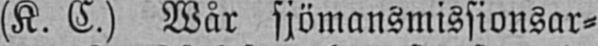(K. C.) Wår sjömansmissionsar-
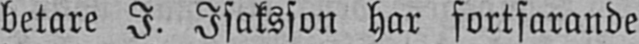betare I. Isaksson har fortfarande
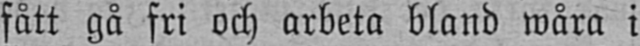fått gå fri och arbeta bland wåra i
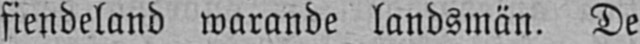fiendeland warande landsmän. De
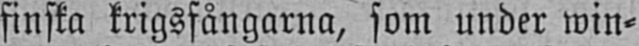finska krigsfångarna, som under win-
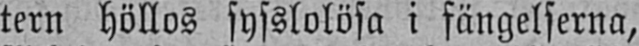tern höllos sysslolösa i fängelserna,
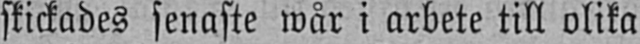skickades senaste wår i arbete till olika
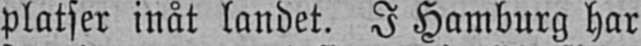platser inåt landet. I Hamburg har
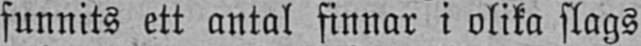funnits ett antal finnar i olika slags
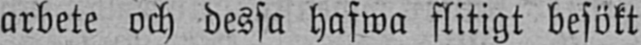arbete och dessa hafwa flitigt besökt
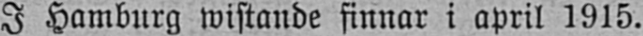I Hamburg wistande finnar i april 1915.
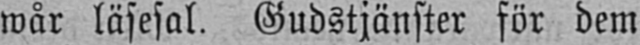wår läsesal. Gudstjänster för dem
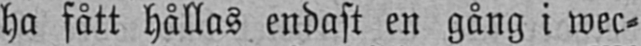ha fått hållas endast en gång i wec-
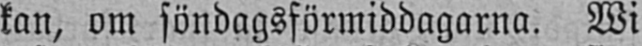kan, om söndagsförmiddagarna. Wi
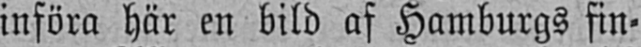införa här en bild af Hamburgs fin-
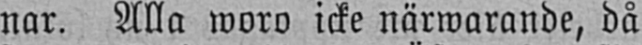nar. Alla woro icke närwarande, då
